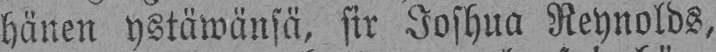hänen ystäwänsä, sir Joshua Reynolds,
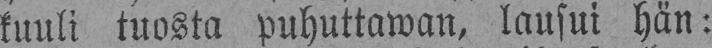kuuli tuosta puhuttawan, lausui hän:
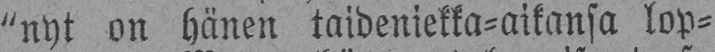"nyt on hänen taideniekka-aikansa lop-
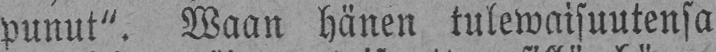punut". Waan hänen tulewaisuutensa
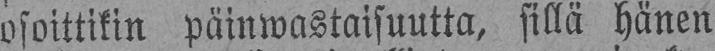osoittikin päinwastaisuutta, sillä hänen
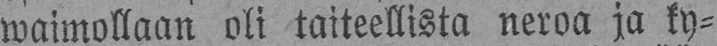waimollaan oli taiteellista neroa ja ky-
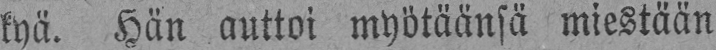kyä. Hän auttoi myötäänsä miestään
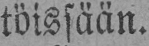töissään.
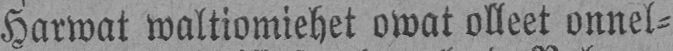Harwat waltiomiehet owat olleet onnel-
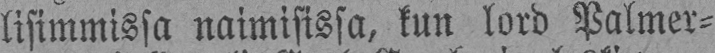lisimmissa naimisissa, kun lord Palmer-
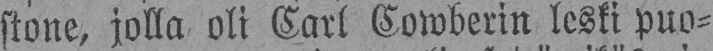stone, jolla oli Carl Cowberin leski puo-
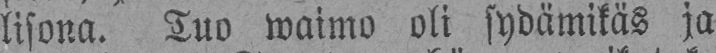lisona. Tuo waimo oli sydämikäs ja
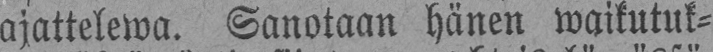ajattelewa. Sanotaan hänen waikutuk-
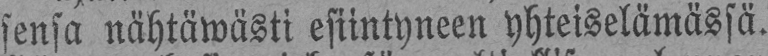sensa nähtäwästi esiintyneen yhteiselämässä.
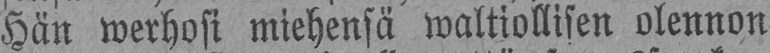Hän werhosi miehensä waltiollisen olennon
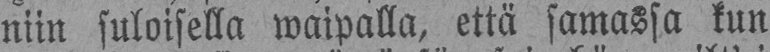niin suloisella waipalla, että samassa kun
